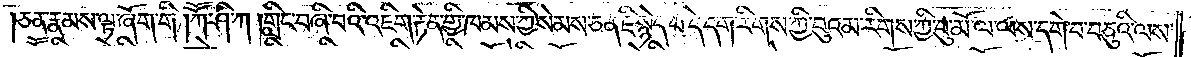ཅན་རྣམས་ལྟ་ཞོག་གི །ཀཽ་ཤི་ཀ། གླིང་བཞི་པའི་འཇིག་རྟེན་གྱི་ཁམས་ཀྱི་སེམས་ཅན་ཇི་སྙེད་པ་དེ་དག་རིགས་ཀྱི་བུ་འམ་རིགས་ཀྱི་བུ་མོ་ལ་ལས་དགེ་བ་བཅུའི་ལས་
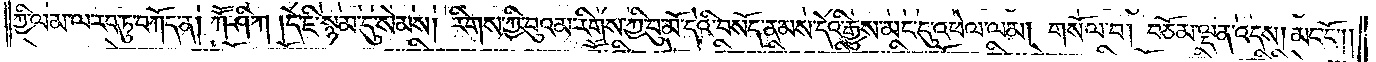ཀྱི་ལམ་ལ་རབ་ཏུ་བཀོད་ན། ཀཽ་ཤི་ཀ །དེ་ཇི་སྙམ་དུ་སེམས། རིགས་ཀྱི་བུའམ་རིགས་ཀྱི་བུ་མོ་དེའི་བསོད་ནམས་དེའི་རྒྱུས་མང་དུ་འཕེལ་ལམ། གསོལ་བ། བཅོམ་ལྡན་འདས། མང་ངོ༌༎
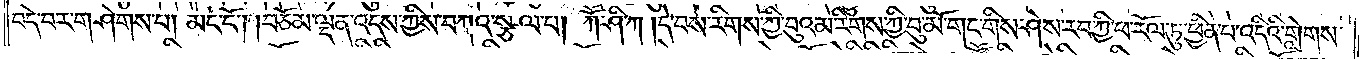བདེ་བར་གཤེགས་པ། མང་ངོ༌། །བཅོམ་ལྡན་འདས་ཀྱིས་བཀའ་སྩལ་པ། ཀཽ་ཤི་ཀ །དེ་བས་རིགས་ཀྱི་བུའམ་རིགས་ཀྱི་བུ་མོ་གང་གིས་ཤེས་རབ་ཀྱི་ཕ་རོལ་ཏུ་ཕྱིན་པ་འདིའི་གླེགས་
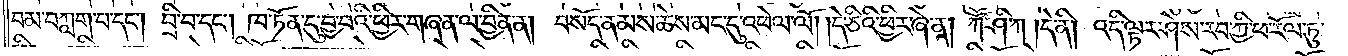བམ་བཀླག་པ་དང༌། བྲི་བ་དང༌། ཁ་ཏོན་དུ་བྱ་བའི་ཕྱིར་གཞན་ལ་བྱིན་ན། བསོད་ནམས་ཆེས་མང་དུ་འཕེལ་ལོ། །དེ་ཅིའི་ཕྱིར་ཞེ་ན། ཀཽ་ཤི་ཀ །དེ་ནི། འདི་ལྟར་ཤེས་རབ་ཀྱི་ཕ་རོལ་ཏུ་
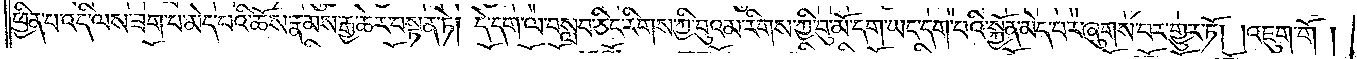ཕྱིན་པ་འདི་ལས་ཟག་པ་མེད་པའི་ཆོས་རྣམས་རྒྱ་ཆེར་བསྟན་ཏེ། དེ་དག་ལ་བསླབ་ཅིང་རིགས་ཀྱི་བུའམ་རིགས་ཀྱི་བུ་མོ་དག་ཡང་དག་པའི་སྐྱོན་མེད་པར་ཞུགས་པར་གྱུར་ཏོ། །འཇུག་གོ །
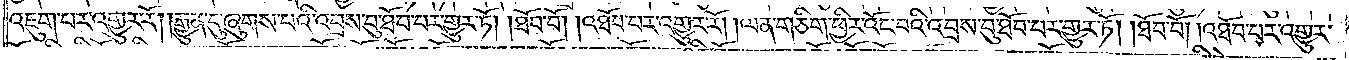འཇུག་པར་འགྱུར་རོ། །རྒྱུན་དུ་ཞུགས་པའི་འབྲས་བུ་ཐོབ་པར་གྱུར་ཏོ། །ཐོབ་བོ། འཐོབ་པར་འགྱུར་རོ། །ལན་གཅིག་ཕྱིར་འོང་བའི་འབྲས་བུ་ཐོབ་པར་གྱུར་ཏོ། །ཐོབ་བོ། འཐོབ་པར་འགྱུར་
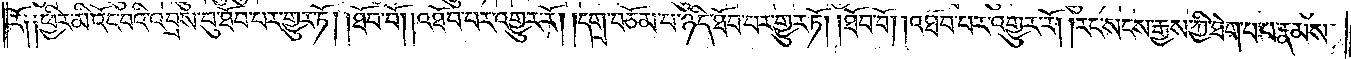རོ། །ཕྱིར་མི་འོང་བའི་འབྲས་བུ་ཐོབ་པར་གྱུར་ཏོ། །ཐོབ་བོ། འཐོབ་པར་འགྱུར་རོ། །དགྲ་བཅོམ་པ་ཉིད་ཐོབ་པར་གྱུར་ཏོ། །ཐོབ་བོ། འཐོབ་པར་འགྱུར་རོ། །རང་སངས་རྒྱས་ཀྱི་ཐེག་པ་པ་རྣམས་
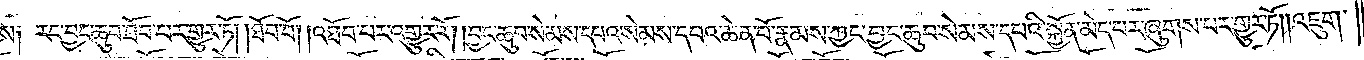ཀྱིས། རང་བྱང་ཆུབ་ཐོབ་པར་གྱུར་ཏོ། །ཐོབ་བོ། འཐོབ་པར་འགྱུར་རོ། །བྱང་ཆུབ་སེམས་དཔའ་སེམས་དཔའ་ཆེན་པོ་རྣམས་ཀྱང་བྱང་ཆུབ་སེམས་དཔའི་སྐྱོན་མེད་པར་ཞུགས་པར་གྱུར་ཏོ། །འཇུག་
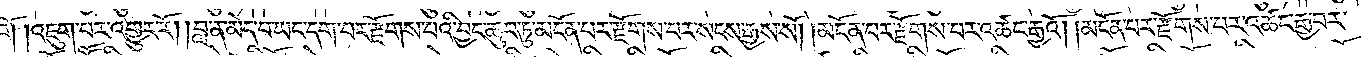གོ །འཇུག་པར་འགྱུར་རོ། །བླ་ན་མེད་པ་ཡང་དག་པར་རྫོགས་པའི་བྱང་ཆུབ་ཏུ་མངོན་པར་རྫོགས་པར་སངས་རྒྱས་སོ། །མངོན་པར་རྫོགས་པར་འཚང་རྒྱའོ། །མངོན་པར་རྫོགས་པར་འཚང་རྒྱ་བར་
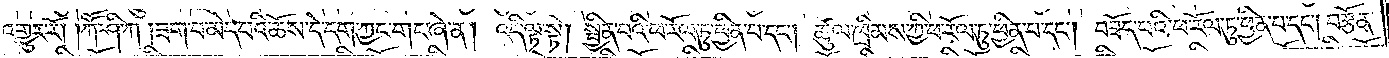འགྱུར་རོ། །ཀཽ་ཤི་ཀ །ཟག་པ་མེད་པའི་ཆོས་དེ་དག་ཀྱང་གང་ཞེ་ན། འདི་ལྟ་སྟེ། སྦྱིན་པའི་ཕ་རོལ་ཏུ་ཕྱིན་པ་དང༌། ཚུལ་ཁྲིམས་ཀྱི་ཕ་རོལ་ཏུ་ཕྱིན་པ་དང༌། བཟོད་པའི་ཕ་རོལ་ཏུ་ཕྱིན་པ་དང༌། བརྩོན་
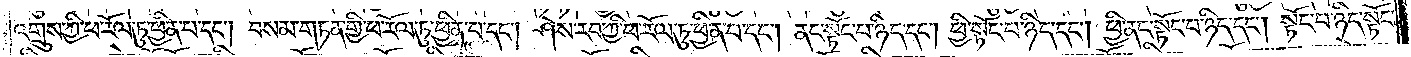འགྲུས་ཀྱི་ཕ་རོལ་ཏུ་ཕྱིན་པ་དང༌། བསམ་གཏན་གྱི་ཕ་རོལ་ཏུ་ཕྱིན་པ་དང༌། ཤེས་རབ་ཀྱི་ཕ་རོལ་ཏུ་ཕྱིན་པ་དང༌། ནང་སྟོང་པ་ཉིད་དང༌། ཕྱི་སྟོང་པ་ཉིད་དང༌། ཕྱི་ནང་སྟོང་པ་ཉིད་དང༌། སྟོང་པ་ཉིད་སྟོང་
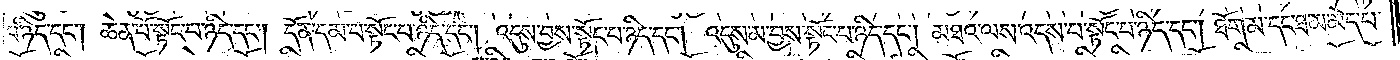པ་ཉིད་དང༌། ཆེན་པོ་སྟོང་པ་ཉིད་དང༌། དོན་དམ་པ་སྟོང་པ་ཉིད་དང༌། འདུས་བྱས་སྟོང་པ་ཉིད་དང༌། འདུས་མ་བྱས་སྟོང་པ་ཉིད་དང༌། མཐའ་ལས་འདས་པ་སྟོང་པ་ཉིད་དང༌། ཐོག་མ་དང་ཐ་མ་མེད་པ་
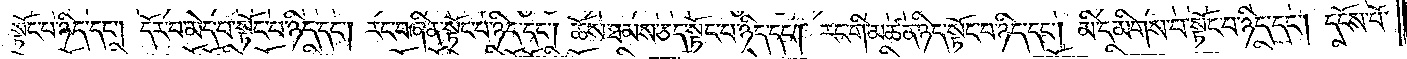སྟོང་པ་ཉིད་དང༌། དོར་བ་མེད་པ་སྟོང་པ་ཉིད་དང༌། རང་བཞིན་སྟོང་པ་ཉིད་དང༌། ཆོས་ཐམས་ཅད་སྟོང་པ་ཉིད་དང༌། རང་གི་མཚན་ཉིད་སྟོང་པ་ཉིད་དང༌། མི་དམིགས་པ་སྟོང་པ་ཉིད་དང༌། དངོས་པོ་
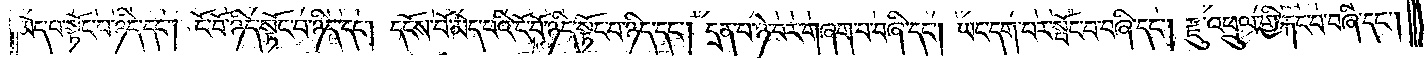མེད་པ་སྟོང་པ་ཉིད་དང༌། ངོ་བོ་ཉིད་སྟོང་པ་ཉིད་དང༌། དངོས་པོ་མེད་པའི་ངོ་བོ་ཉིད་སྟོང་པ་ཉིད་དང༌། དྲན་པ་ཉེ་བར་གཞག་པ་བཞི་དང༌། ཡང་དག་པར་སྤོང་བ་བཞི་དང༌། རྫུ་འཕྲུལ་གྱི་རྐང་པ་བཞི་དང༌།
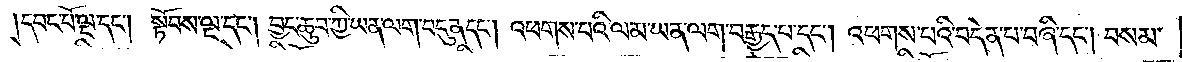དབང་པོ་ལྔ་དང༌། སྟོབས་ལྔ་དང༌། བྱང་ཆུབ་ཀྱི་ཡན་ལག་བདུན་དང༌། འཕགས་པའི་ལམ་ཡན་ལག་བརྒྱད་པ་དང༌། འཕགས་པའི་བདེན་པ་བཞི་དང༌། བསམ་
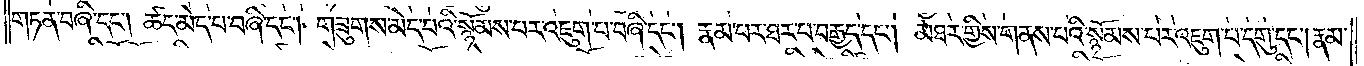གཏན་བཞི་དང༌། ཚད་མེད་པ་བཞི་དང༌། གཟུགས་མེད་པའི་སྙོམས་པར་འཇུག་པ་བཞི་དང༌། རྣམ་པར་ཐར་པ་བརྒྱད་དང༌། མཐར་གྱིས་གནས་པའི་སྙོམས་པར་འཇུག་པ་དགུ་དང༌། རྣམ་
